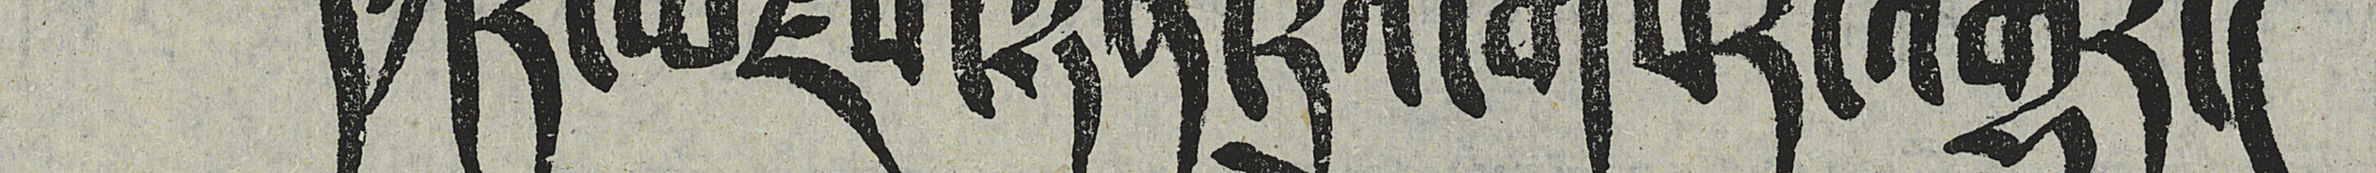དཀར་མཛེས་ཉིན་རེའི་གསར་འགྱུར།
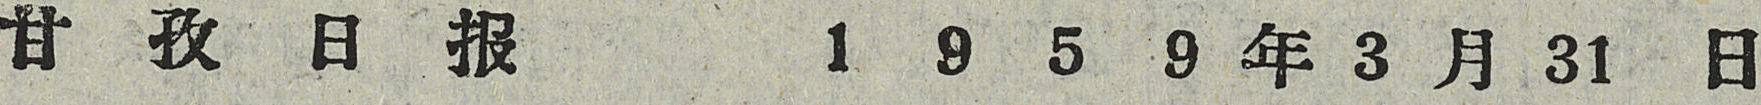甘 孜 日 报 1 9 5 9 年 3 月 31 日
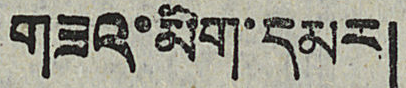གཟའ་མིག་དམར།
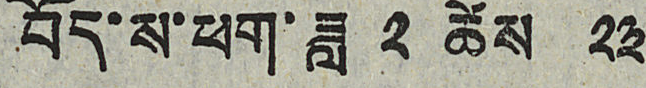བོད་ས་ཕག་ཟླ ༢ ཚེས ༢༣
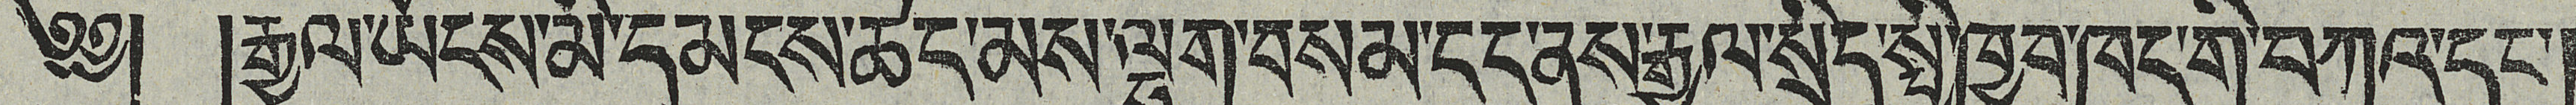༄༅། །རྒྱལ་ཡོངས་མི་དམངས་ཚང་མས་ལྷག་བསམ་ངང་ནས་རྒྱལ་སྲིད་སྤྱི་ཁྱབ་ཁང་གི་བཀའ་དང་།
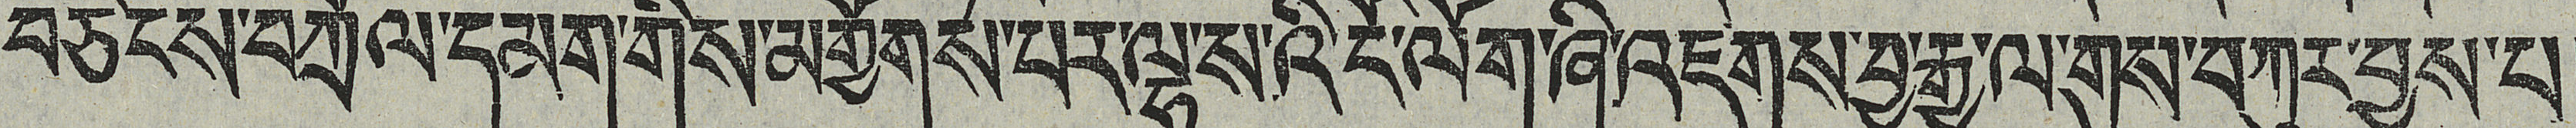ཅིངས་བཀྲོལ་དམག་གིས་མགྱོགས་པར་ལྷ་སའི་ངོ་ལོག་ཞི་འཇགས་བྱ་རྒྱུ་ལ་གུས་བཀུར་བྱས་པ།
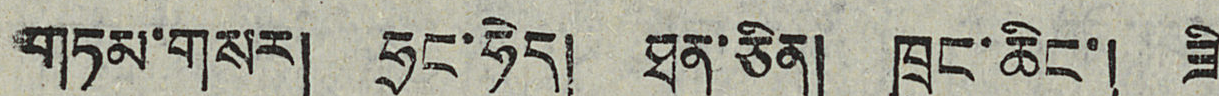གཏམ་གསར། ཧྲང་ཧེད། ཐན་ཅིན། ཁྲུང་ཆིང་། ཟི
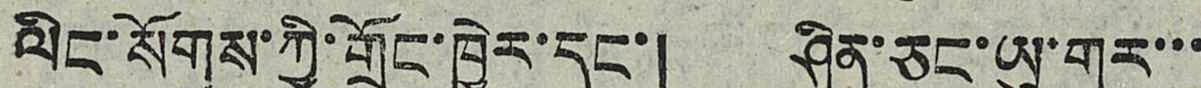ལིང་སོགས་ཀྱི་གྲོང་ཁྱེར་དང་། ཤིན་ཅང་ཡུ་གུར་་་
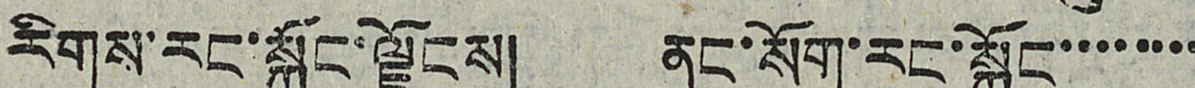རིགས་རང་སྐྱོང་ལྗོངས། ནང་སོགས་རང་སྐྱོང་་་་་་་་
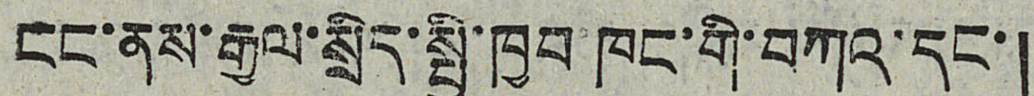ངང་ནས་རྒྱལ་སྲིད་སྤྱི་ཁྱབ་ཁང་གི་བཀའ་དང་།
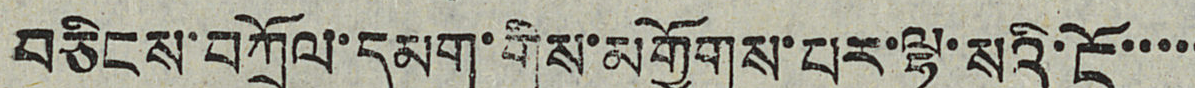བཅིངས་བཀྲོལ་དམག་གིས་མགྱོགས་པར་ལྷ་སའི་ངོ་་་་་
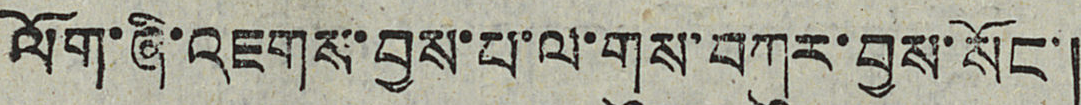ལོག་ཞི་འཇགས་བྱས་པ་ལ་གུས་བཀུར་བྱས་སོང་།
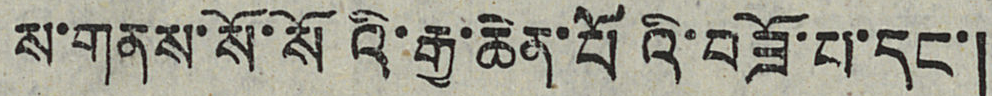ས་གནས་སོ་སོའི་རྒྱ་ཆེན་པོའི་བཟོ་པ་དང་།
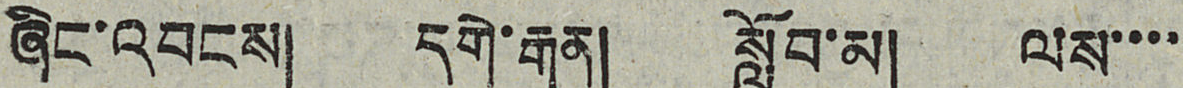ཞིང་འབངས། དགེ་རྒན། སློབ་མ། ལས་་་་་
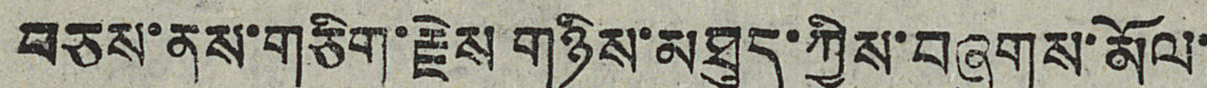བཅས་ནས་གཅིག་རྗེས གཉིས་མཐུད་ཀྱིས་བཞུགས་མོལ་
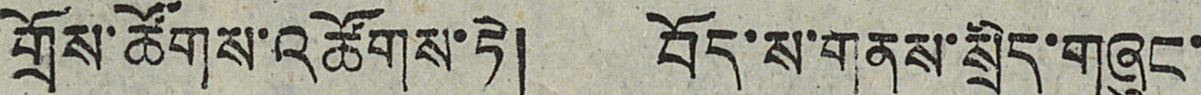གྲོས་ཚོགས་འཚོགས་ཏེ། བོད་ས་གནས་སྲིད་གཞུང་
